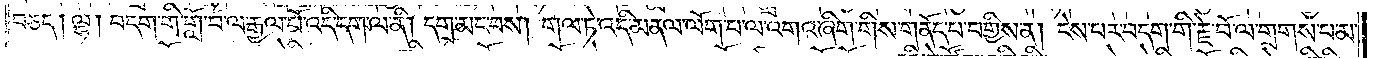བཅད། ལྷ། བདག་གི་གློ་བ་ལ་རྒྱལ་པོ་འདི་དག་ལ་ནི། དགྲ་མང་བས། གལ་ཏེ་འདི་མནལ་ལོག་པ་ལ་འགའ་ཞིག་གིས་གནོད་པ་བགྱིས་ན། ངེས་པར་བདག་གི་རྗེ་བོ་ལ་གྲགས་པ་མ་
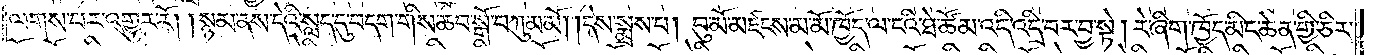ལགས་པར་འགྱུར་རོ། །སྙམ་ནས་དེའི་སླད་དུ་བདག་གིས་ཆབ་སྒོ་བཀུམ་མོ། །དེས་སྨྲས་པ། བུ་མོ་མཛངས་མ་མོ་ཁྱོད་ལ་ངའི་ཐེ་ཚོམ་འདི་འདྲི་བར་བྱ་སྟེ། རེ་ཞིག་ཁྱོད་མིང་ཆེན་གྱི་ཅིར་
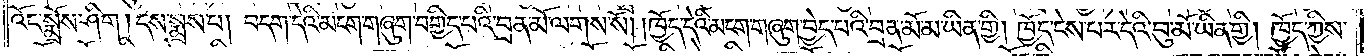འོང་སྨྲོས་ཤིག །དེས་སྨྲས་པ། བདག་དེའི་མངག་གཞུག་བགྱིད་པའི་བྲན་མོ་ལགས་སོ། །ཁྱོད་དེའི་མངག་གཞུག་བྱེད་པའི་བྲན་མོ་མ་ཡིན་གྱི། ཁྱོད་ངེས་པར་དེའི་བུ་མོ་ཡིན་གྱི། ཁྱོད་ཀྱིས་
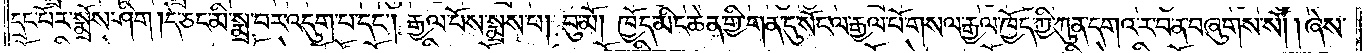དྲང་པོར་སྨྲོས་ཤིག །དེ་ཅང་མི་སྨྲ་བར་འདུག་པ་དང༌། རྒྱལ་པོས་སྨྲས་པ། བུ་མོ། ཁྱོད་མིང་ཆེན་གྱི་གན་དུ་སོང་ལ་རྒྱལ་པོ་གསལ་རྒྱལ་ཁྱོད་ཀྱི་ཀུན་དགའ་ར་བ་ན་བཞུགས་སོ། །ཞེས་
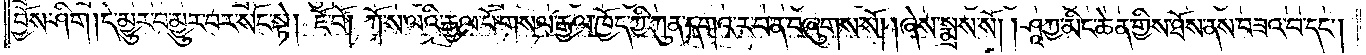བྱོས་ཤིག །དེ་མྱུར་བ་མྱུར་བར་སོང་སྟེ། ཇོ་བོ། ཀོ་ས་ལའི་རྒྱལ་པོ་གསལ་རྒྱལ་ཁྱོད་ཀྱི་ཀུན་དགའ་ར་བ་ན་བཞུགས་སོ། །ཞེས་སྨྲས་སོ། །ཤཱཀྱ་མིང་ཆེན་གྱིས་ཐོས་ནས་བཟའ་བ་དང༌།
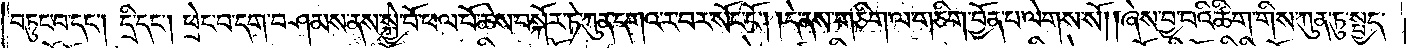བཏུང་བ་དང༌། དྲི་དང༌། ཕྲེང་བ་དག་བཤམས་ནས་སྐྱེ་བོ་ཕལ་པོ་ཆེས་བསྐོར་ཏེ་ཀུན་དགའ་ར་བར་སོང་ངོ༌། །དེ་ནས་གཅིག་ལ་གཅིག་བྱོན་པ་ལེགས་སོ། །ཞེས་བྱ་བའི་ཚིག་གིས་ཀུན་ཏུ་སྤྱད་
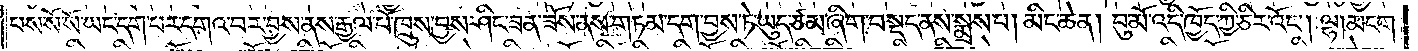པས་སོ་སོ་ཡང་དག་པར་དགའ་བར་བྱས་ནས་རྒྱལ་པོ་ཁྲུས་བྱས་ཤིང་ཟན་ཟོས་ནས་གཏམ་དག་བྱས་ཏེ་ཡུད་ཙམ་ཞིག་བསྡད་ནས་སྨྲས་པ། མིང་ཆེན། བུ་མོ་འདི་ཁྱོད་ཀྱི་ཅིར་འོང༌། ལྷ། མངག་
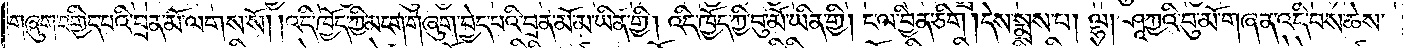གཞུག་བགྱིད་པའི་བྲན་མོ་ལགས་སོ། །འདི་ཁྱོད་ཀྱི་མངག་གཞུག་བྱེད་པའི་བྲན་མོ་མ་ཡིན་གྱི། འདི་ཁྱོད་ཀྱི་བུ་མོ་ཡིན་གྱི། ང་ལ་བྱིན་ཅིག །དེས་སྨྲས་པ། ལྷ། ཤཱཀྱའི་བུ་མོ་གཞན་འདི་བས་ཆེས་
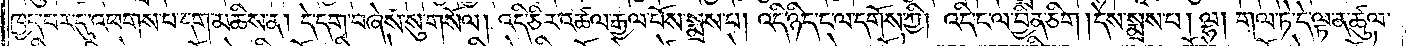ཁྱད་པར་དུ་འཕགས་པ་དག་མཆིས་ན། དེ་དག་བཞེས་སུ་གསོལ། འདི་ཅིར་འཚལ་རྒྱལ་པོས་སྨྲས་པ། འདི་ཉིད་ང་ལ་དགོས་ཀྱི། འདི་ང་ལ་བྱིན་ཅིག །དེས་སྨྲས་པ། ལྷ། གལ་ཏེ་དེ་ལྟ་ན་ཚུལ་
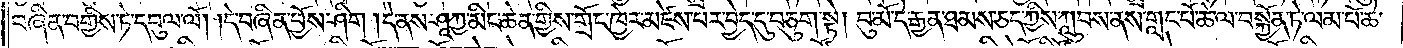བཞིན་བགྱིས་ཏེ་དབུལ་ལོ། །དེ་བཞིན་བྱོས་ཤིག །དེ་ནས་ཤཱཀྱ་མིང་ཆེན་གྱིས་གྲོང་ཁྱེར་མཛེས་པར་བྱེད་དུ་བཅུག་སྟེ། བུ་མོ་དེ་རྒྱན་ཐམས་ཅད་ཀྱིས་ཀླུབས་ནས་གླང་པོ་ཆེ་ལ་བསྐྱོན་ཏེ་ལམ་པོ་ཆེ་
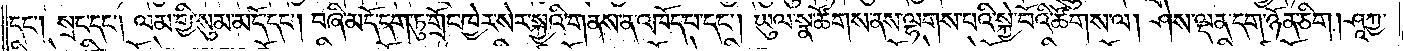དང༌། སྲང་དང༌། ལམ་གྱི་སུམ་མདོ་དང༌། བཞི་མདོ་དག་ཏུ་གྲོང་ཁྱེར་སེར་སྐྱའི་གནས་ན་འཁོད་པ་དང༌། ཡུལ་སྣ་ཚོགས་ནས་ལྷགས་པའི་སྐྱེ་བོའི་ཚོགས་ལ། ཤེས་ལྡན་དག་ཉོན་ཅིག །ཤཱཀྱ་
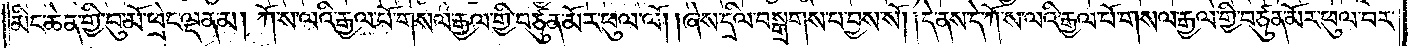མིང་ཆེན་གྱི་བུ་མོ་ཕྲེང་ལྡན་མ། ཀོ་ས་ལའི་རྒྱལ་པོ་གསལ་རྒྱལ་གྱི་བཙུན་མོར་ཕུལ་ལོ། །ཞེས་དྲིལ་བསྒྲགས་པ་བྱས་སོ། །དེ་ནས་དེ་ཀོ་ས་ལའི་རྒྱལ་པོ་གསལ་རྒྱལ་གྱི་བཙུན་མོར་ཕུལ་བར་
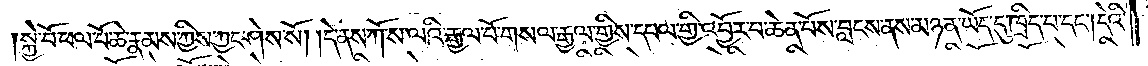སྐྱེ་བོ་ཕལ་པོ་ཆེ་རྣམས་ཀྱིས་ཀྱང་ཤེས་སོ། །དེ་ནས་ཀོ་ས་ལའི་རྒྱལ་པོ་གསལ་རྒྱལ་གྱིས་དཔལ་གྱི་འབྱོར་བ་ཆེན་པོས་བླངས་ནས་མཉན་ཡོད་དུ་ཁྲིད་པ་དང༌། དེའི་
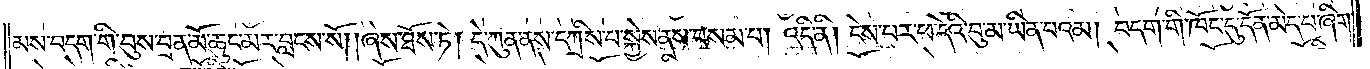མས་བདག་གི་བུས་བྲན་མོ་ཆུང་མར་བླངས་སོ། །ཞེས་ཐོས་ཏེ། དེ་ཀུན་ནས་དཀྲིས་པ་སྐྱེས་ནས་བསམ་པ། འདི་ནི། ངེས་པར་ཕ་དེའི་བུ་མ་ཡིན་པའམ། བདག་གི་ཁོང་དུ་དོན་མེད་པ་ཞིག་
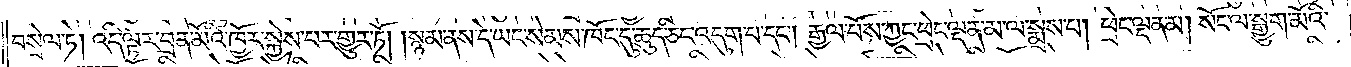བསྲེལ་ཏེ། འདི་ལྟར་བྲན་མོའི་ཁྱོར་སྐྱེས་པར་གྱུར་ཏོ། །སྙམ་ནས་དེ་ཡང་སེམས་ཁོང་དུ་ཆུད་ཅིང་འདུག་པ་དང༌། རྒྱལ་པོས་ཀྱང་ཕྲེང་ལྡན་མ་ལ་སྨྲས་པ། ཕྲེང་ལྡན་མ། སོང་ལ་སྒྱུག་མོའི་
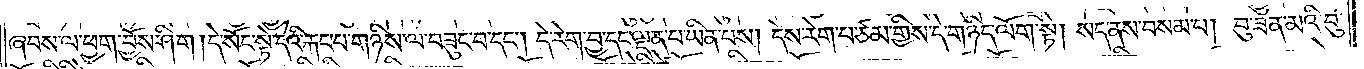ཞབས་ལ་ཕྱག་བྱོས་ཤིག །དེ་སོང་སྟེ་དེའི་རྐང་པ་གཉིས་ལ་བཟུང་བ་དང༌། དེ་རེག་བྱ་དང་ལྡན་པ་ཡིན་པས། དེས་རེག་པ་ཙམ་གྱིས་དེ་གཉིད་ལོག་སྟེ། སད་ནས་བསམ་པ། བུ་ཟན་མའི་བུ་
